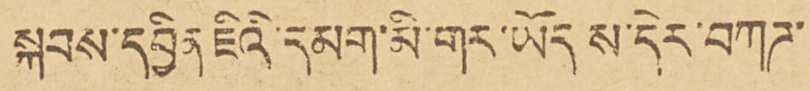སྐབས་དབྱིན ཇིའི་དམག་མི་གར་ཡོདས་དེར་བཀཊ་
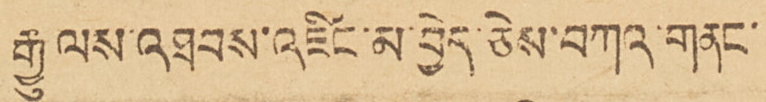རྒྱུ ལས་འཐབས་འཛིང་མ་བྱེད་ཅེས་བཀའ་གནང་
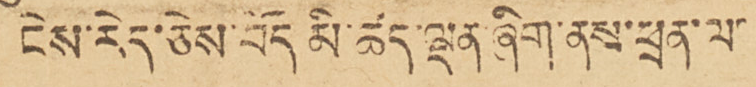ངེས་རེད་ཅེས་བོད མི་ཚད་ལྡན་ཞིག་ནས་ཕྲན་ལ་
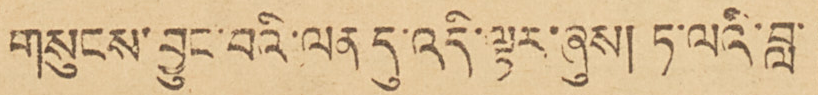གསུངས་བྱུང་བའི་ལན དུ་འདི་ལྟར་ཞུས། ཏཱ་ལའི་བླ་
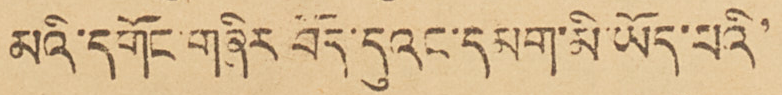མའི་དགོང་གཞིར བོད་དུའང་དམག་མི་ཡོད་པའི་
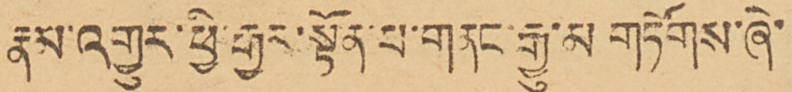རྣམ་འགྱུར་ཕྱི་རྒྱུར་སྟོན་པ་གནང་རྒྱུ་མ གཏོགས་ཞེ་
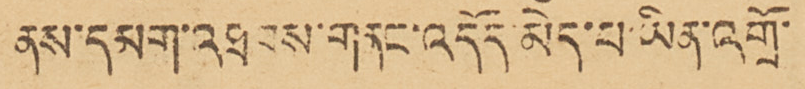ནས་དམག་འཐབས་གནང་འདོད་མེད་པ་ཡིན་འགྲོ་
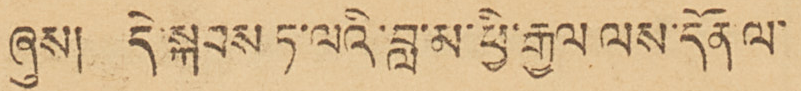ཞུས། དེ་སྐབས ཏ་ལའི་བླ་མ་ཕྱི་རྒྱལ ལས་དོན་ལ་
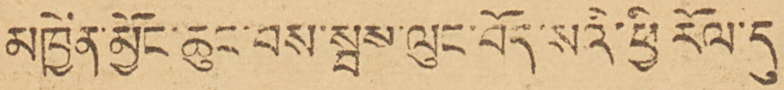མཁྱེན་མྱོང་ཆུང་བས་སྦས་ལུང་བོད་སའི་ཕྱི རོལ་དུ་
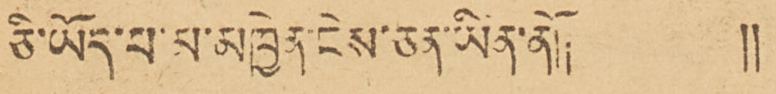ཅི་ཡོད་པ་མ་མཁྱེན་ངེས་ཅན་ཡིན་ནོ།། །
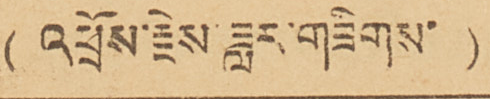( འཕྲོས་རྗེས་ཟླར་གཟིགས་ )
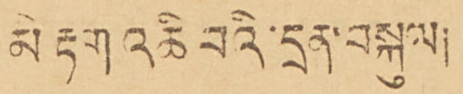མེ རྟག འཆི བའི་དྲན་བསྐུལ།
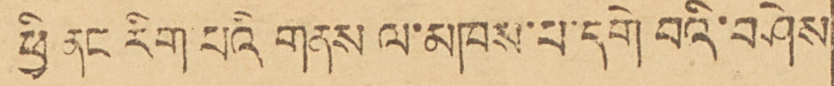ཕྱི ནང རིག་པའི གནས ལ་མཁས་པ་དགེ བའི་བཤེས
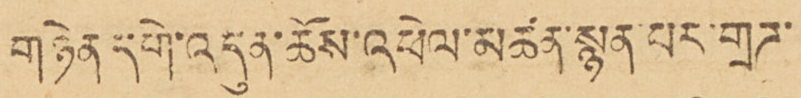གཉེན དགེ་འདུན་ཆོས་འཕེལ་མཚན་སྙན་པར་གྲཌ་
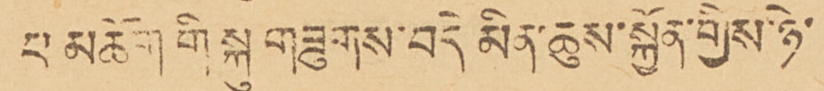པ མཆོག གི སྐུ གཟུགས་བདེ མིན་ཆུས་སྐྱོན་གྱིས་ཉེ་
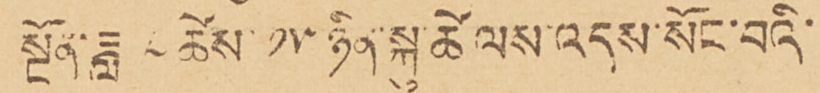སྔོན་ཟླ ༨ ཚེས་ ༡༥ ཉིན་སྐུ་ཚེ ལས་འདས་སོང་བའི་
